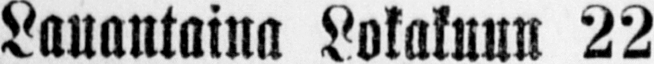Lauantaina Lokakuun 22
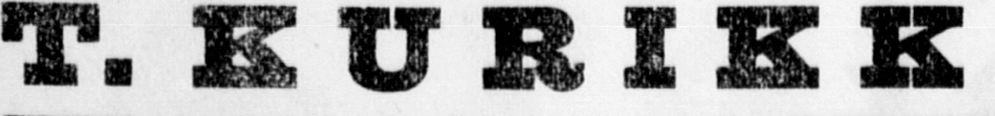T. KURIKKA.
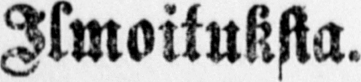Ismoitukska.
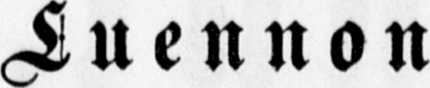Luennon
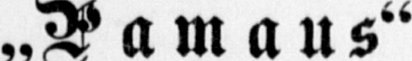„Pamaus"
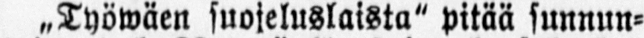„Iyöwäen suojeluslaista" pitää sunnun-
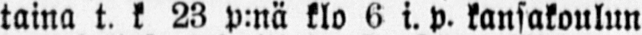taina t. k 23 p:nä klo 6 i. p. kansakoulun
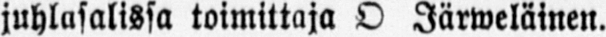juhlasalissa toimittaja O Järweläinen.
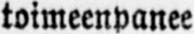toimeenpanee
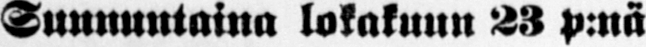Sunnuntaina lokakuun 22 p:nä
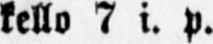kello 7 i. p.
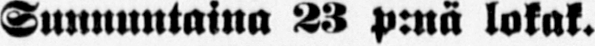Sunnuntaina 23 p:nä lokak.
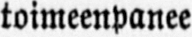toimeenpanee
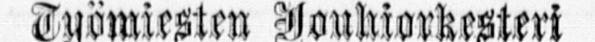Työmiesten Jouhiorkesteri
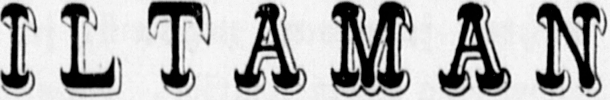ILTAMAN
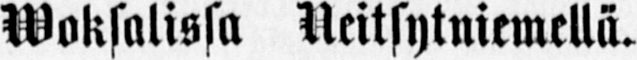Woksalissa Neitsytniemellä.
